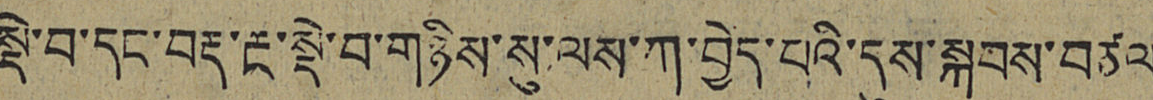སྡེ་བ་དང་བརྡ་རྔ་སྡེ་བ་གཉིས་སུ་ལས་ཀ་བྱེད་པའི་དུས་སྐབས་བཙལ
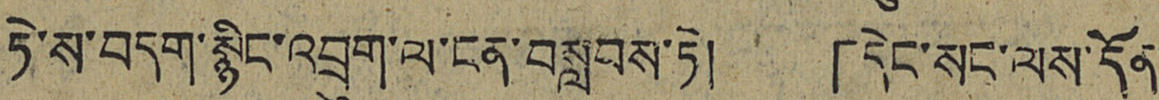ཏེ་ས་བདག་སྙིང་འབྲུག་ལ་ངན་བསླབས་ཏེ། 「དེང་སང་ལས་དོན་
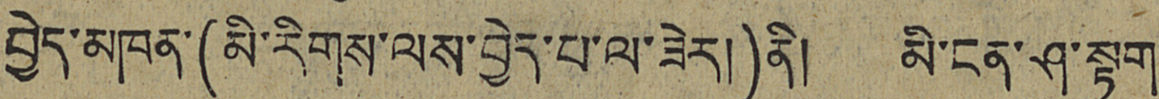བྱེད་མཁན་(མི་རིགས་ལས་བྱེད་པ་ལ་ཟེར།)ནི། མི་ངན་ཤ་སྟག་
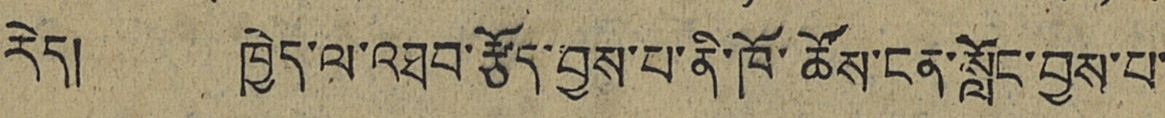རེད། ཁྱེད་ལ་འཐབ་རྩོད་བྱས་པ་ནི་ཁོ་ཚོས་ངན་སློང་བྱས་པ་
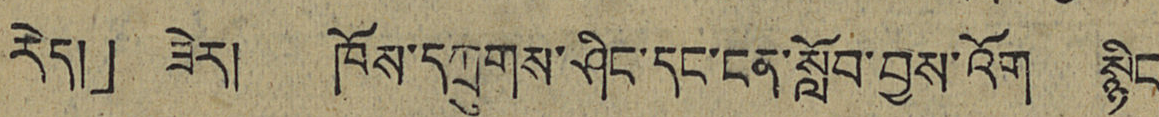རེད།」 ཟེར། ཁོས་དཀྲུགས་ཤིང་དང་ངན་སློབ་བྱས་འོག སྙིང་
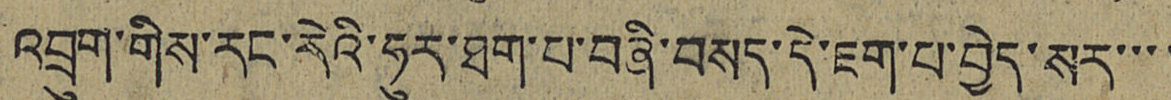འབྲུག་གིས་རང་རེའི་ཧུར་ཐག་པ་བཞི་བསད་དེ་ཇག་པ་བྱེད་སར་་་་
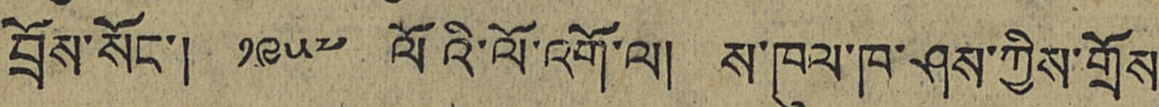བྲོས་སོང་། ༡༩༥༧ ལོའི་ལོ་འགོ་ལ། ས་ཁུལ་ཁ་ཤས་ཀྱིས་གྲོས་
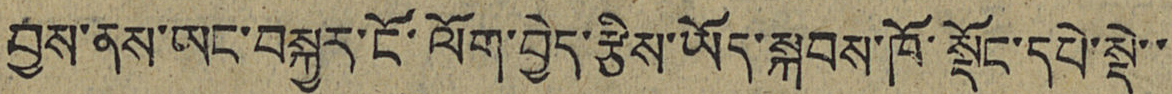བྱས་ནས་ཡང་བསྐྱར་ངོ་ལོག་བྱེད་རྩིས་ཡོད་སྐབས་ཁོ་སྡོང་དཔེ་སྡེ་་
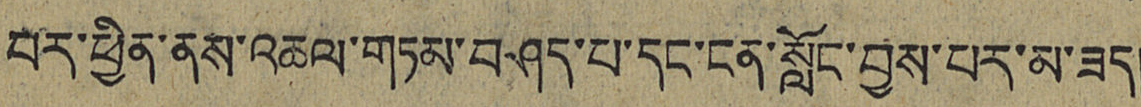བར་ཕྱིན་ནས་འཆལ་གཏམ་བཤད་པ་དང་ངན་སློང་བྱས་པར་མ་ཟད།
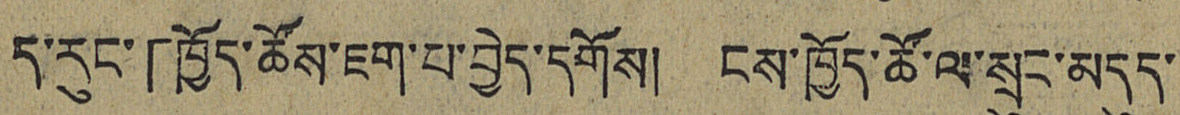ད་རུང་「ཁྱོད་ཚོས་ཇག་པ་བྱེད་དགོས། ངས་ཁྱོད་ཚོ་ལ་སྲུང་མདུད་
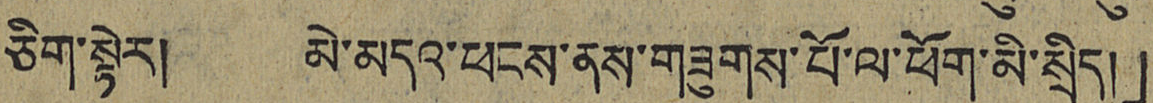ཅིག་སྟེར། མེ་མདའ་ཕངས་ནས་གཟུགས་པོ་ལ་ཕོག་མི་སྲིད།」
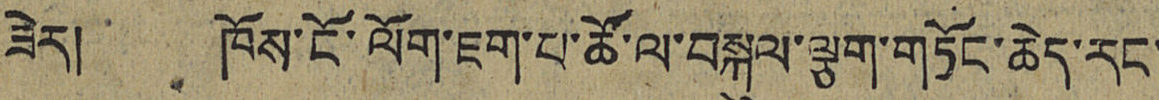ཟེར། ཁོས་ངོ་ལོག་ཇག་པ་ཚོ་ལ་བསྐུལ་ལྕག་གཏོང་ཆེད་རང་
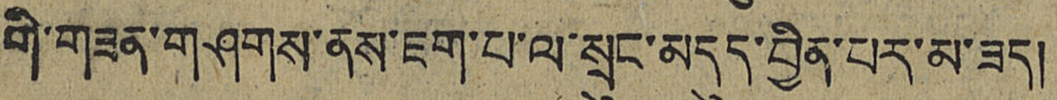གི་གཟན་གཤགས་ནས་ཇག་པ་ལ་སྲུང་མདུད་བྱིན་པར་མ་ཟད།
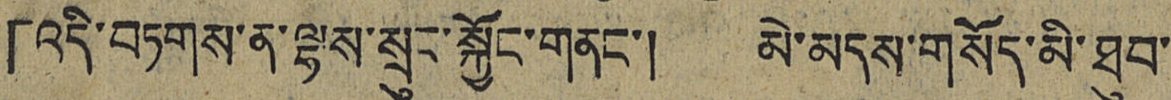「འདི་བཏགས་ན་ལྷས་སྲུང་སྐྱོང་གནང་། མེ་མདས་གསོད་མི་ཐུབ་
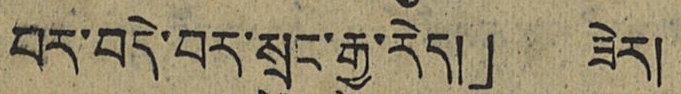བར་བདེ་བར་སྲུང་རྒྱུ་རེད།」 ཟེར།
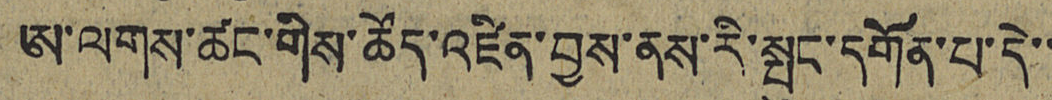ཨ་ལགས་ཚང་གིས་ཚོད་འཛིན་བྱས་ནས་རི་སྤུང་དགོན་པ་དེ་་
